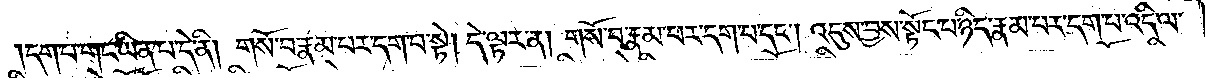དག་པ་གང་ཡིན་པ་དེ་ནི། གསོ་བ་རྣམ་པར་དག་པ་སྟེ། དེ་ལྟར་ན། གསོ་བ་རྣམ་པར་དག་པ་དང༌། འདུས་བྱས་སྟོང་པ་ཉིད་རྣམ་པར་དག་པ་འདི་ལ་
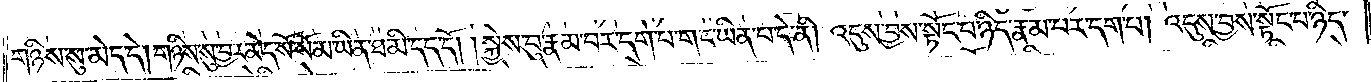གཉིས་སུ་མེད་དེ། གཉིས་སུ་བྱར་མེད་སོ་སོ་མ་ཡིན་ཐ་མི་དད་དོ། །སྐྱེས་བུ་རྣམ་པར་དག་པ་གང་ཡིན་པ་དེ་ནི། འདུས་བྱས་སྟོང་པ་ཉིད་རྣམ་པར་དག་པ། འདུས་བྱས་སྟོང་པ་ཉིད་
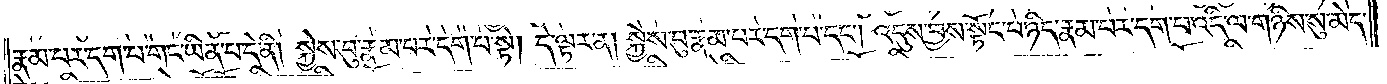རྣམ་པར་དག་པ་གང་ཡིན་པ་དེ་ནི། སྐྱེས་བུ་རྣམ་པར་དག་པ་སྟེ། དེ་ལྟར་ན། སྐྱེས་བུ་རྣམ་པར་དག་པ་དང༌། འདུས་བྱས་སྟོང་པ་ཉིད་རྣམ་པར་དག་པ་འདི་ལ་གཉིས་སུ་མེད་
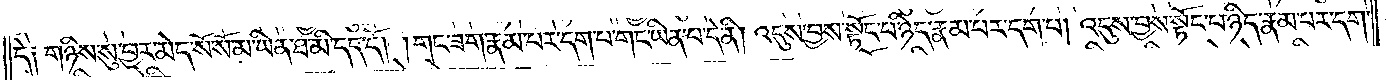དེ། གཉིས་སུ་བྱར་མེད་སོ་སོ་མ་ཡིན་ཐ་མི་དད་དོ། །གང་ཟག་རྣམ་པར་དག་པ་གང་ཡིན་པ་དེ་ནི། འདུས་བྱས་སྟོང་པ་ཉིད་རྣམ་པར་དག་པ། འདུས་བྱས་སྟོང་པ་ཉིད་རྣམ་པར་དག་
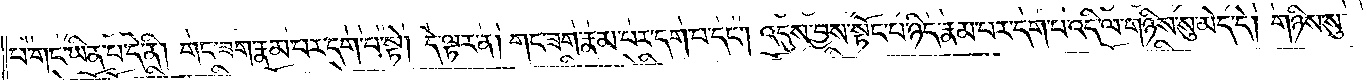པ་གང་ཡིན་པ་དེ་ནི། གང་ཟག་རྣམ་པར་དག་པ་སྟེ། དེ་ལྟར་ན། གང་ཟག་རྣམ་པར་དག་པ་དང༌། འདུས་བྱས་སྟོང་པ་ཉིད་རྣམ་པར་དག་པ་འདི་ལ་གཉིས་སུ་མེད་དེ། གཉིས་སུ་
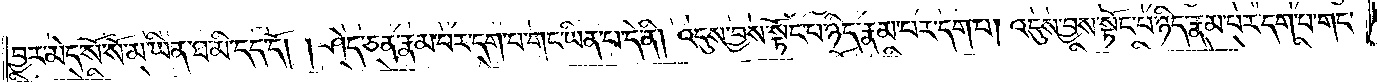བྱར་མེད་སོ་སོ་མ་ཡིན་ཐ་མི་དད་དོ། །ཤེད་ཅན་རྣམ་པར་དག་པ་གང་ཡིན་པ་དེ་ནི། འདུས་བྱས་སྟོང་པ་ཉིད་རྣམ་པར་དག་པ། འདུས་བྱས་སྟོང་པ་ཉིད་རྣམ་པར་དག་པ་གང་
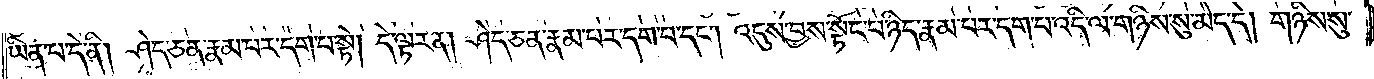ཡིན་པ་དེ་ནི། ཤེད་ཅན་རྣམ་པར་དག་པ་སྟེ། དེ་ལྟར་ན། ཤེད་ཅན་རྣམ་པར་དག་པ་དང༌། འདུས་བྱས་སྟོང་པ་ཉིད་རྣམ་པར་དག་པ་འདི་ལ་གཉིས་སུ་མེད་དེ། གཉིས་སུ་
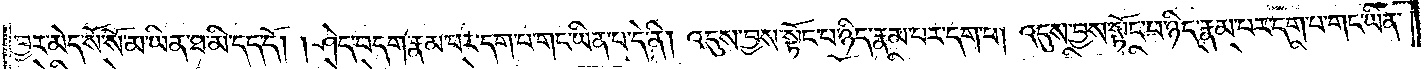བྱར་མེད་སོ་སོ་མ་ཡིན་ཐ་མི་དད་དོ། །ཤེད་བདག་རྣམ་པར་དག་པ་གང་ཡིན་པ་དེ་ནི། འདུས་བྱས་སྟོང་པ་ཉིད་རྣམ་པར་དག་པ། འདུས་བྱས་སྟོང་པ་ཉིད་རྣམ་པར་དག་པ་གང་ཡིན་
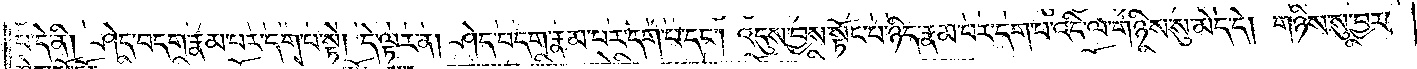པ་དེ་ནི། ཤེད་བདག་རྣམ་པར་དག་པ་སྟེ། དེ་ལྟར་ན། ཤེད་བདག་རྣམ་པར་དག་པ་དང༌། འདུས་བྱས་སྟོང་པ་ཉིད་རྣམ་པར་དག་པ་འདི་ལ་གཉིས་སུ་མེད་དེ། གཉིས་སུ་བྱར་
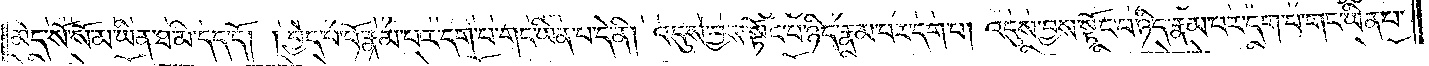མེད་སོ་སོ་མ་ཡིན་ཐ་མི་དད་དོ། །བྱེད་པ་པོ་རྣམ་པར་དག་པ་གང་ཡིན་པ་དེ་ནི། འདུས་བྱས་སྟོང་པ་ཉིད་རྣམ་པར་དག་པ། འདུས་བྱས་སྟོང་པ་ཉིད་རྣམ་པར་དག་པ་གང་ཡིན་པ་
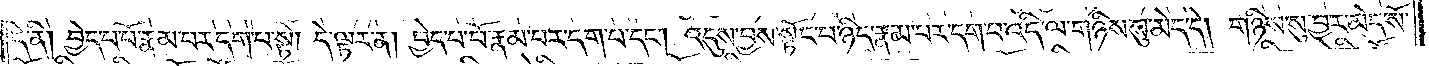དེ་ནི། བྱེད་པ་པོ་རྣམ་པར་དག་པ་སྟེ། དེ་ལྟར་ན། བྱེད་པ་པོ་རྣམ་པར་དག་པ་དང༌། འདུས་བྱས་སྟོང་པ་ཉིད་རྣམ་པར་དག་པ་འདི་ལ་གཉིས་སུ་མེད་དེ། གཉིས་སུ་བྱར་མེད་སོ་
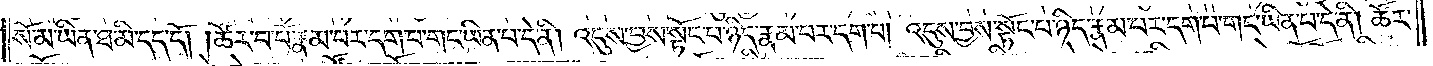སོ་མ་ཡིན་ཐ་མི་དད་དོ། །ཚོར་བ་པོ་རྣམ་པར་དག་པ་གང་ཡིན་པ་དེ་ནི། འདུས་བྱས་སྟོང་པ་ཉིད་རྣམ་པར་དག་པ། འདུས་བྱས་སྟོང་པ་ཉིད་རྣམ་པར་དག་པ་གང་ཡིན་པ་དེ་ནི། ཚོར་
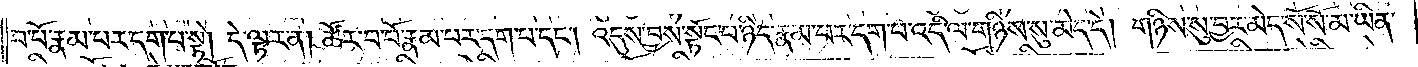བ་པོ་རྣམ་པར་དག་པ་སྟེ། དེ་ལྟར་ན། ཚོར་བ་པོ་རྣམ་པར་དག་པ་དང༌། འདུས་བྱས་སྟོང་པ་ཉིད་རྣམ་པར་དག་པ་འདི་ལ་གཉིས་སུ་མེད་དེ། གཉིས་སུ་བྱར་མེད་སོ་སོ་མ་ཡིན་
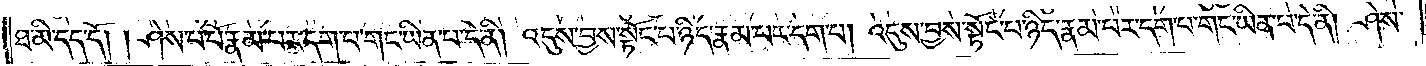ཐ་མི་དད་དོ། །ཤེས་པ་པོ་རྣམ་པར་དག་པ་གང་ཡིན་པ་དེ་ནི། འདུས་བྱས་སྟོང་པ་ཉིད་རྣམ་པར་དག་པ། འདུས་བྱས་སྟོང་པ་ཉིད་རྣམ་པར་དག་པ་གང་ཡིན་པ་དེ་ནི། ཤེས་
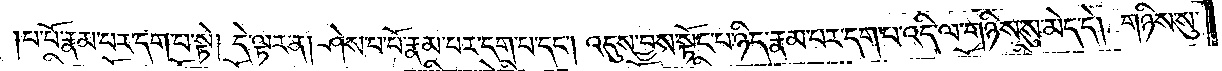པ་པོ་རྣམ་པར་དག་པ་སྟེ། དེ་ལྟར་ན། ཤེས་པ་པོ་རྣམ་པར་དག་པ་དང༌། འདུས་བྱས་སྟོང་པ་ཉིད་རྣམ་པར་དག་པ་འདི་ལ་གཉིས་སུ་མེད་དེ། གཉིས་སུ་
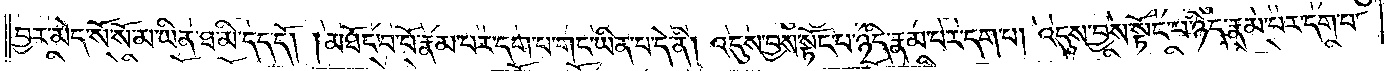བྱར་མེད་སོ་སོ་མ་ཡིན་ཐ་མི་དད་དོ། །མཐོང་བ་པོ་རྣམ་པར་དག་པ་གང་ཡིན་པ་དེ་ནི། འདུས་བྱས་སྟོང་པ་ཉིད་རྣམ་པར་དག་པ། འདུས་བྱས་སྟོང་པ་ཉིད་རྣམ་པར་དག་པ་
